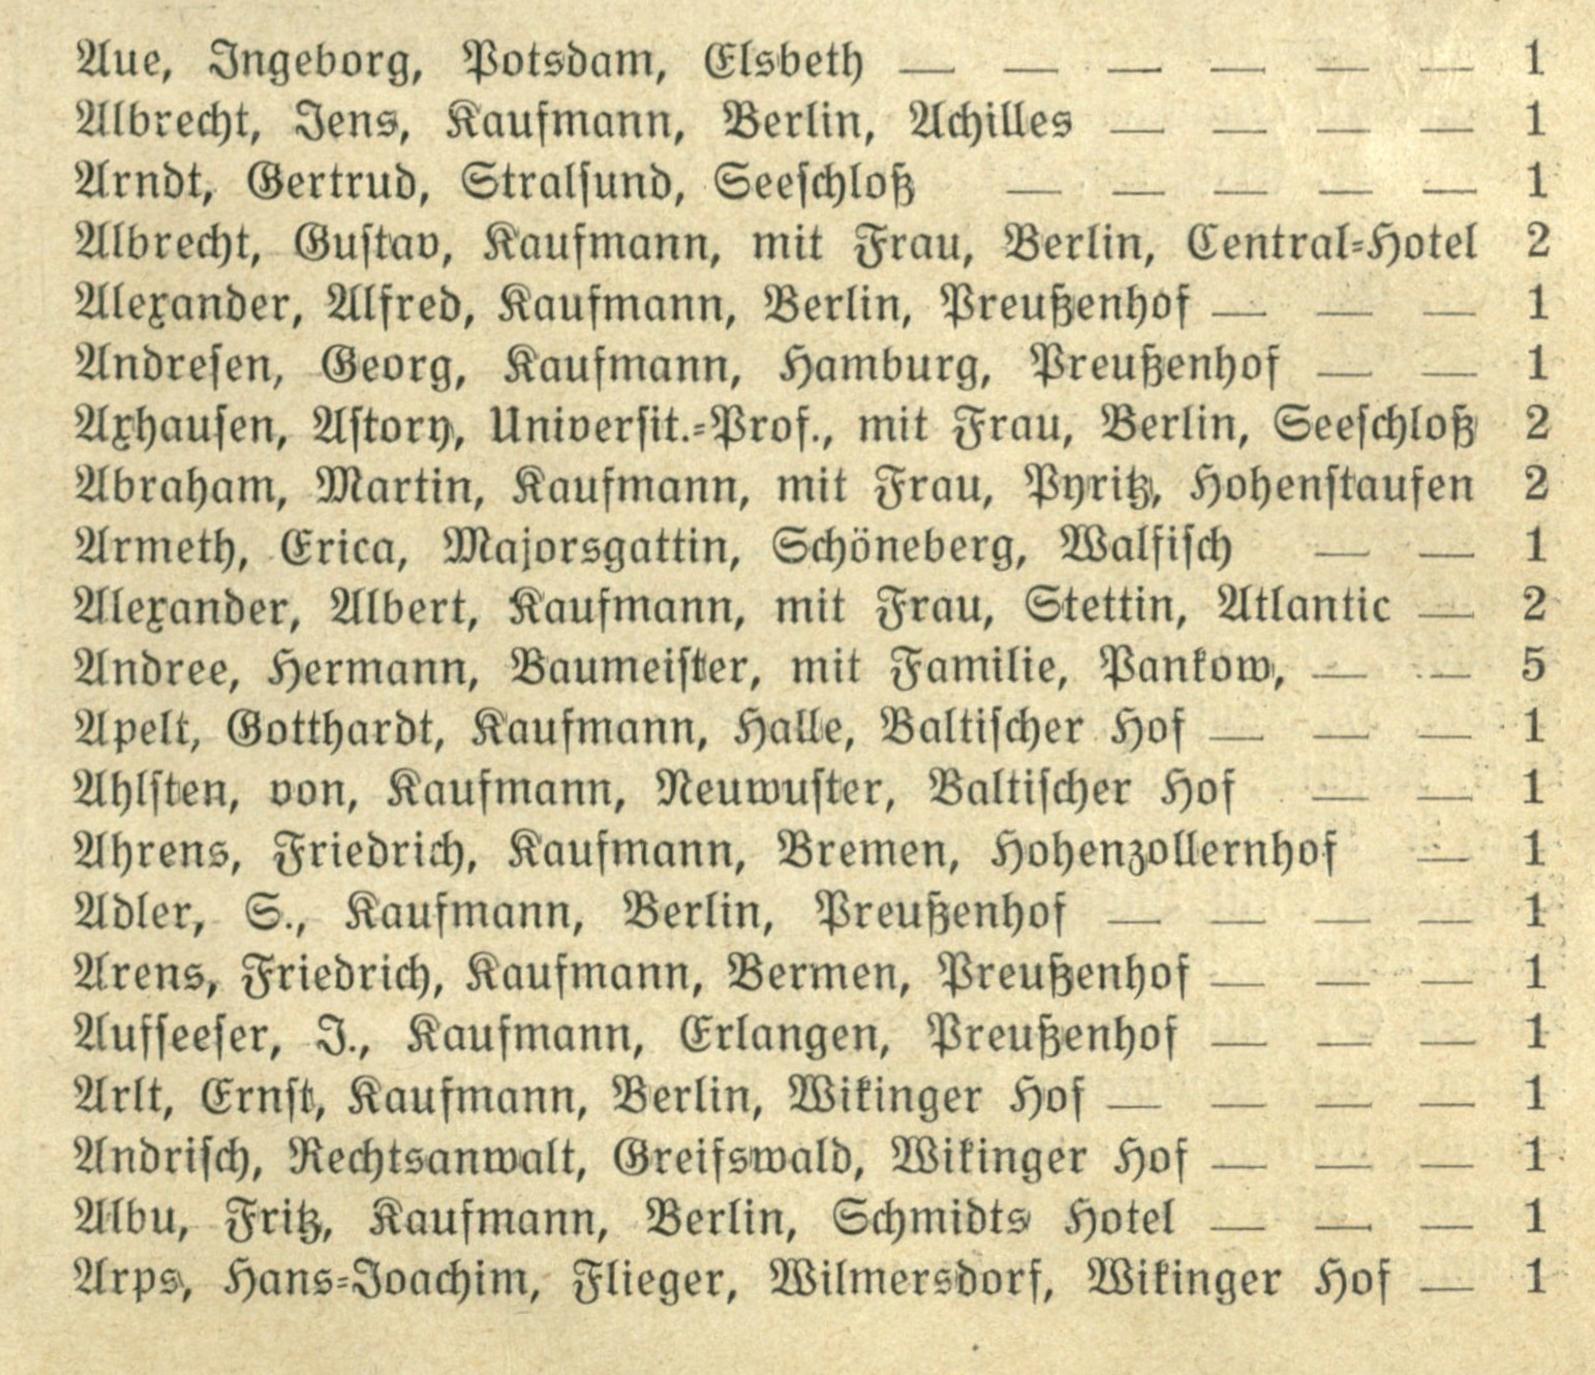Aue, Ingeborg, Potsdam, Elsbeth | 1
Albrecht, Jens, Kaufmann, Berlin, Achilles | 1
Arndt, Gertrud, Stralsund, Seeschloß | 1
Albrecht, Gustav, Kaufmann, mit Frau, Berlin, Central=Hotel | 2
Alexander, Alfred, Kaufmann, Berlin, Preußenhof | 1
Andresen, Georg, Kaufmann, Hamburg, Preußenhof | 1
Axhausen, Astory, Universit.=Prof., mit Frau, Berlin, Seeschloß | 2
Abraham, Martin, Kaufmann, mit Frau, Pyritz, Hohenstaufen | 2
Armeth, Erica, Majorsgattin, Schöneberg, Walfisch | 1
Alexander, Albert, Kaufmann, mit Frau, Stettin, Atlantic | 2
Andree, Hermann, Baumeister, mit Familie, Pankow, | 5
Apelt, Gotthardt, Kaufmann, Halee, Baltischer Hof | 1
Ahlsten, von, Kaufmann, Neuwuster, Baltischer Hof | 1
Ahrens, Friedrich, Kaufmann, Bremen, Hohenzollernhof | 1
Adler, S., Kaufmann, Berlin, Preußenhof | 1
Arens, Friedrich, Kaufmann, Bremen, Preußenhof | 1
Aufseeser, I., Kaufmann, Erlangen, Preußenhof | 1
Arlt, Ernst, Kaufmann, Berlin, Wikinger Hof | 1
Andrisch, Rechtsanwalt, Greifswald, Wikinger Hof | 1
Albu, Fritz, Kaufmann, Berlin, Schmidts Hotel | 1
Arps, Hans=Joachim, Flieger, Wilmersdorf, Wikinger Hof | 1
